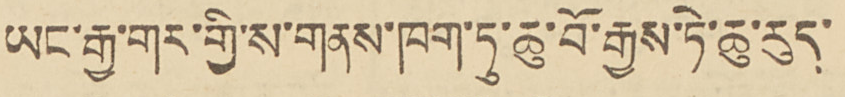ཡང་རྒྱ་གར་གྱི་ས་གནས་ཁག་ཏུ་ཆུ་བོ་རྒྱས་ཏེ་ཆུ་རུད
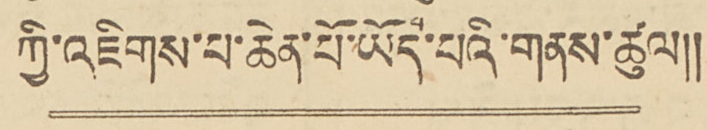ཀྱི་འཇིགས་པ་ཆེན་པོ་ཡོད་པའི་གནས་ཚུལ།།
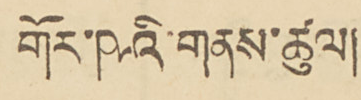གོར་ཥའི་གནས་ཚུལ།
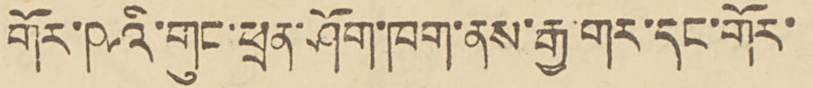གོར་ཥའི་གུང་ཕྲན་ཤོག་ཁག་ནས་རྒྱ་གར་དང་གོར་
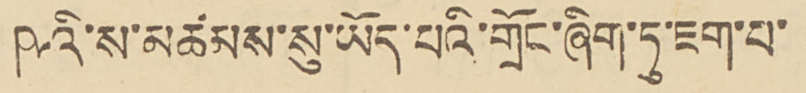ཥའི་ས་མཚམས་སུ་ཡོད་པའི་གྲོང་ཞིག་ཏུ་ཇག་པ་
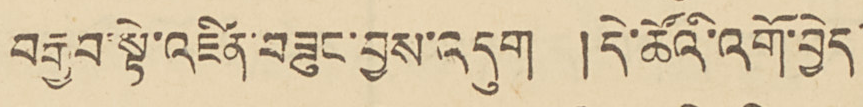བརྒྱབ་སྟེ་འཛིན་བཟུང་བྱས་འདུག །དེ་ཚོའི་འགོ་བྱེད
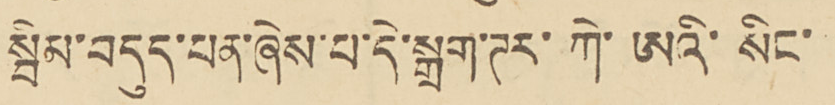སྦིམ་བདུད་པན་ཞེས་པ་དེ་སྒྲག་ཊར་ཀེ་ཨའི་སིང་
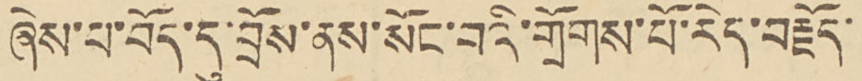ཞེས་པ་བོད་དུ་བྲོས་ནས་སོང་བའི་གྲོགས་པོ་རེད་བརྗོད་
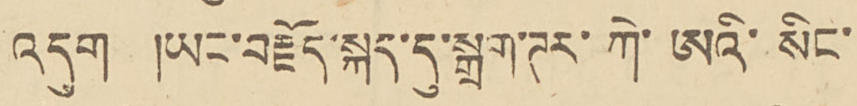འདུག །ཡང་བརྗོད་སྐད་དུ་སྒྲག་ཊར་ཀེ་ཨའི་སིང་
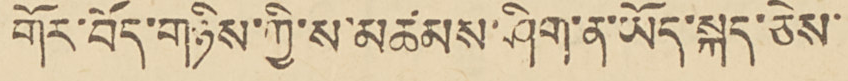གོར་བོད་གཉིས་ཀྱི་ས་མཚམས་ཤིག་ན་ཡོད་སྐད་ཅེས་
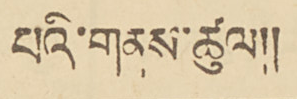པའི་གནས་ཚུལ།།
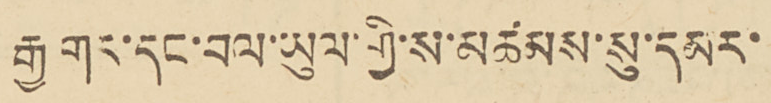རྒྱ་གར་དང་བལ་ཡུལ་གྱི་ས་མཚམས་སུ་དམར་
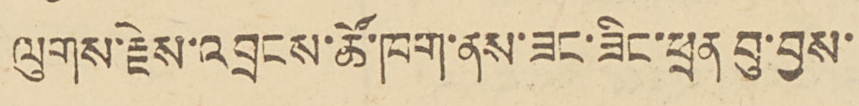ལུགས་རྗེས་འབྲངས་ཚོ་ཁག་ནས་ཟང་ཟིང་ཕྲན བུ་བྱས་
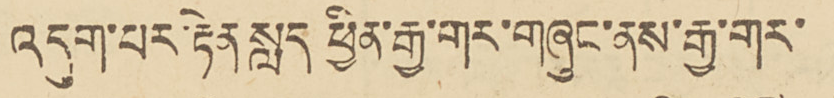འདུག་པར་རྟེན་སླད ཕྱིན་རྒྱ་གར་གཞུང་ནས་རྒྱ་གར་
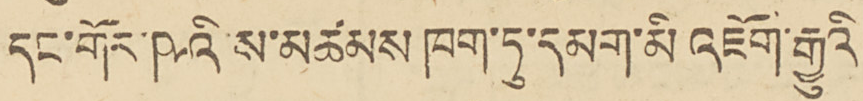དང་གོར་ཥའི་ས་མཚམས ཁག་ཏུ་དམག་མི འཇོག་རྒྱུའི་
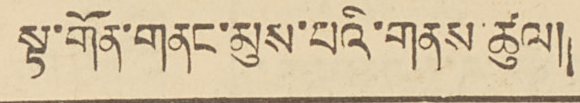ལྟ་གོན་གནང་མུས་པའི་གནས་ཚུལ།།
